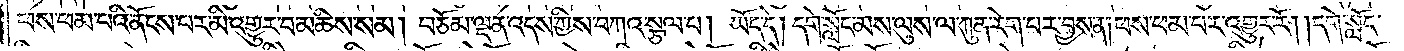ཕས་ཕམ་པའི་ནོངས་པར་མི་འགྱུར་བ་མཆིས་སམ། བཅོམ་ལྡན་འདས་ཀྱིས་བཀའ་སྩལ་པ། ཡོད་དེ། དགེ་སློང་མས་ལུས་ལ་ཀུན་རེག་པར་བྱས་ན། ཕས་ཕམ་པར་འགྱུར་རོ། །དགེ་སློང་
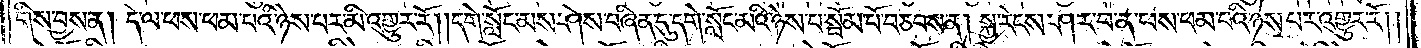གིས་བྱས་ན། དེ་ལ་ཕས་ཕམ་པའི་ཉེས་པར་མི་འགྱུར་རོ། །དགེ་སློང་མས་ཤེས་བཞིན་དུ་དགེ་སློང་མའི་ཉེས་པ་སྦོམ་པོ་བཅབས་ན། སྐྱ་རེངས་ཤར་བ་ན་ཕས་ཕམ་པའི་ཉེས་པར་འགྱུར་རོ། །
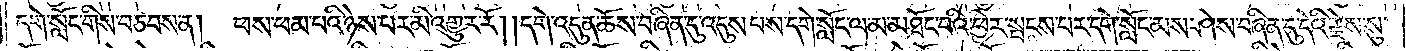དགེ་སློང་གིས་བཅབས་ན། ཕས་ཕམ་པའི་ཉེས་པར་མི་འགྱུར་རོ། །དགེ་འདུན་ཆོས་བཞིན་དུ་འདུས་པས་དགེ་སློང་ལ་མ་མཐོང་བའི་ཕྱིར་སྤངས་པར་དགེ་སློང་མས་ཤེས་བཞིན་དུ་དེའི་རྗེས་སུ་
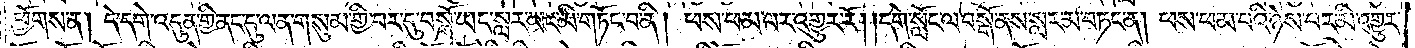ཕྱོགས་ན། དེ་དགེ་འདུན་གྱི་ནང་དུ་ལན་གསུམ་གྱི་བར་དུ་བསྒོ་ཡང་སླར་ཡང་མི་གཏོང་བ་ནི། ཕས་ཕམ་པར་འགྱུར་རོ། །དགེ་སློང་ལ་བསྒོ་ནས་སླར་མ་བཏང་ན། ཕས་ཕམ་པའི་ཉེས་པར་མི་འགྱུར་
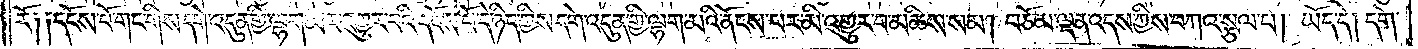རོ། །དངོས་པོ་གང་གིས་དགེ་འདུན་གྱི་ལྷག་མར་འགྱུར་བའི་དངོས་པོ་དེ་ཉིད་ཀྱིས་དགེ་འདུན་གྱི་ལྷག་མའི་ནོངས་པར་མི་འགྱུར་བ་མཆིས་སམ། བཅོམ་ལྡན་འདས་ཀྱིས་བཀའ་སྩལ་པ། ཡོད་དེ། དགེ་
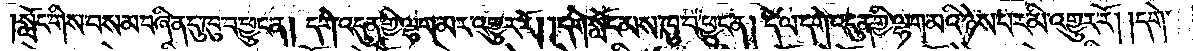སློང་གིས་བསམ་བཞིན་དུ་ཁུ་བ་ཕྱུང་ན། དགེ་འདུན་གྱི་ལྷག་མར་འགྱུར་རོ། །དགེ་སློང་མས་ཁུ་བ་ཕྱུང་ན། དེ་ལ་དགེ་འདུན་གྱི་ལྷག་མའི་ཉེས་པར་མི་འགྱུར་རོ། །དགེ་
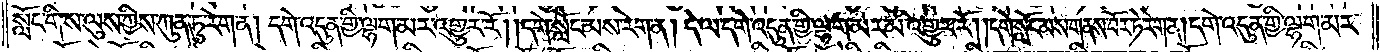སློང་གིས་ལུས་ཀྱིས་ཀུན་ཏུ་རེག་ན། དགེ་འདུན་གྱི་ལྷག་མར་འགྱུར་རོ། །དགེ་སློང་མས་རེག་ན། དེ་ལ་དགེ་འདུན་གྱི་ལྷག་མར་མི་འགྱུར་རོ། །དགེ་སློང་མས་གནས་བོར་ཏེ་རེག་ན། དགེ་འདུན་གྱི་ལྷག་མར་
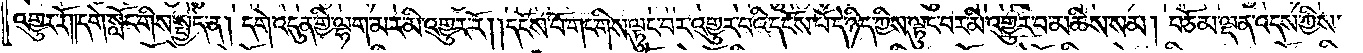འགྱུར་རོ། །དགེ་སློང་གིས་སྤྱད་ན། དགེ་འདུན་གྱི་ལྷག་མར་མི་འགྱུར་རོ། །དངོས་པོ་གང་གིས་ལྟུང་བར་འགྱུར་བའི་དངོས་པོ་དེ་ཉིད་ཀྱིས་ལྟུང་བར་མི་འགྱུར་བ་མཆིས་སམ། བཅོམ་ལྡན་འདས་ཀྱིས་
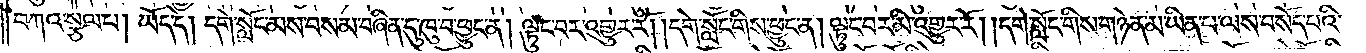བཀའ་སྩལ་པ། ཡོད་དེ། དགེ་སློང་མས་བསམ་བཞིན་དུ་ཁུ་བ་ཕྱུང་ན། ལྟུང་བར་འགྱུར་རོ། །དགེ་སློང་གིས་ཕྱུང་ན། ལྟུང་བར་མི་འགྱུར་རོ། །དགེ་སློང་གིས་གཉེན་མ་ཡིན་པ་ལས་བསོད་པའི་
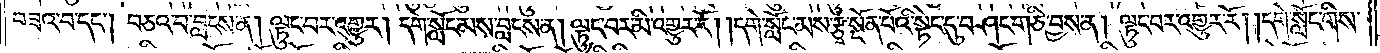བཟའ་བ་དང༌། བཅའ་བ་བླངས་ན། ལྟུང་བར་འགྱུར། དགེ་སློང་མས་བླངས་ན། ལྟུང་བར་མི་འགྱུར་རོ། །དགེ་སློང་མས་རྩྭ་སྔོན་པོའི་སྟེང་དུ་བཤང་གཅི་བྱས་ན། ལྟུང་བར་འགྱུར་རོ། །དགེ་སློང་གིས་
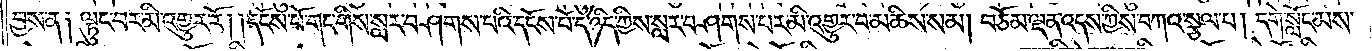བྱས་ན། ལྟུང་བར་མི་འགྱུར་རོ། །དངོས་པོ་གང་གིས་སླར་བཤགས་པའི་དངོས་པོ་དེ་ཉིད་ཀྱིས་སླར་བཤགས་པར་མི་འགྱུར་བ་མཆིས་སམ། བཅོམ་ལྡན་འདས་ཀྱིས་བཀའ་སྩལ་པ། དགེ་སློང་མས་
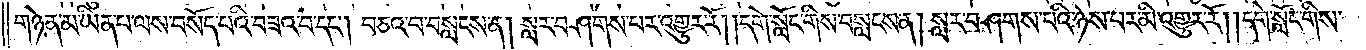གཉེན་མ་ཡིན་པ་ལས་བསོད་པའི་བཟའ་བ་དང༌། བཅའ་བ་བསླངས་ན། སླར་བཤགས་པར་འགྱུར་རོ། །དགེ་སློང་གིས་བསླངས་ན། སླར་བཤགས་པའི་ཉེས་པར་མི་འགྱུར་རོ། །དགེ་སློང་གིས་
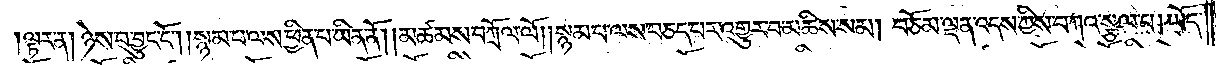ལྟར་ན། ཉེས་པ་བྱུང་ངོ༌། །སྙམ་པ་ལས་ཕྱིན་པ་ཡིན་ནོ། །མཚམས་བཀྲོལ་ལོ། །སྙམ་པ་ལས་བཅད་པར་འགྱུར་བ་མཆིས་སམ། བཅོམ་ལྡན་འདས་ཀྱིས་བཀའ་སྩལ་པ། ཡོད་
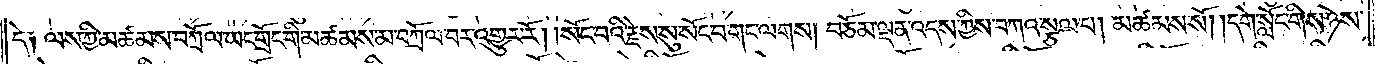དེ། ལས་ཀྱི་མཚམས་བཀྲོལ་ཡང་གྲོང་གི་མཚམས་མ་བཀྲོལ་བར་འགྱུར་རོ། །སོང་བའི་རྗེས་སུ་སོང་བ་གང་ལགས། བཅོམ་ལྡན་འདས་ཀྱིས་བཀའ་སྩལ་པ། མཚམས་སོ། །དགེ་སློང་གིས་ཉེས་
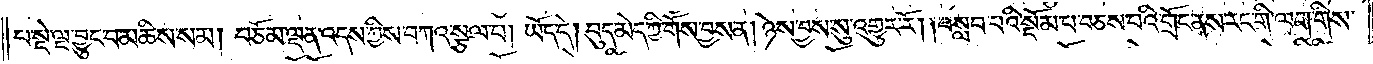པ་སྡེ་ལྔ་བྱུང་བ་མཆིས་སམ། བཅོམ་ལྡན་འདས་ཀྱིས་བཀའ་སྩལ་པ། ཡོད་དེ། བུད་མེད་ཀྱི་གོས་བྱས་ན། ཉེས་བྱས་སུ་འགྱུར་རོ། །བསླབ་པའི་སྡོམ་པ་བཅས་པའི་གྲོང་ནས་རང་གི་ལག་གིས་
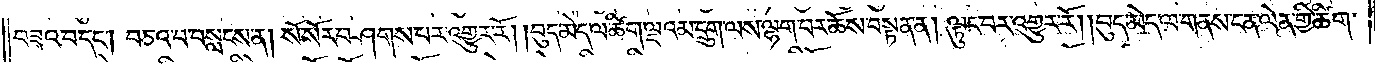བཟའ་བ་དང༌། བཅའ་བ་བསླངས་ན། སོ་སོར་བཤགས་པར་འགྱུར་རོ། །བུད་མེད་ལ་ཚིག་ལྔའམ་དྲུག་ལས་ལྷག་པར་ཆོས་བསྟན་ན། ལྟུང་བར་འགྱུར་རོ། །བུད་མེད་ལ་གནས་ངན་ལེན་གྱི་ཚིག་
